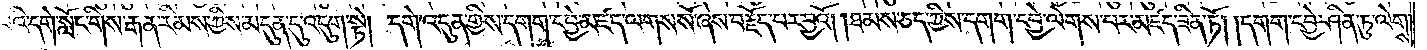པའི་དགེ་སློང་གིས་རྒན་རིམས་ཀྱིས་མདུན་དུ་འདུག་སྟེ། དགེ་འདུན་གྱིས་དགག་དབྱེ་མཛད་ལགས་སོ་ཞེས་བརྗོད་པར་བྱའོ། །ཐམས་ཅད་ཀྱིས་དགག་དབྱེ་ལེགས་པར་མཛད་ཟིན་ཏོ། །དགག་དབྱེ་ཤིན་ཏུ་ལེགས་
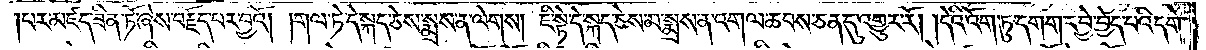།པར་མཛད་ཟིན་ཏོ་ཞེས་བརྗོད་པར་བྱའོ། །གལ་ཏེ་དེ་སྐད་ཅེས་སྨྲས་ན་ལེགས། ཇི་སྟེ་དེ་སྐད་ཅེས་མ་སྨྲས་ན་འགལ་ཆབས་ཅན་དུ་འགྱུར་རོ། །དེའི་འོག་ཏུ་དགག་དབྱེ་བྱེད་པའི་དགེ་
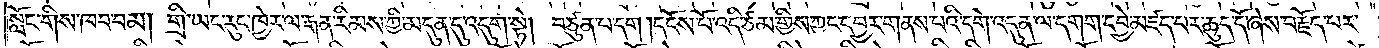སློང་གིས་ཁབ་བམ། གྲི་ཡང་རུང་ཁྱེར་ལ་རྒན་རིམས་ཀྱི་མདུན་དུ་འདུག་སྟེ། བཙུན་པ་དག །དངོས་པོ་འདི་ཙམ་གྱིས་ཀྱང་དབྱར་གནས་པའི་དགེ་འདུན་ལ་དགག་དབྱེ་མཛད་པར་ཆུད་དོ་ཞེས་བརྗོད་པར་
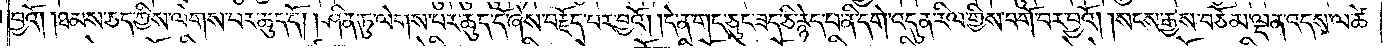བྱའོ། །ཐམས་ཅད་ཀྱིས་ལེགས་པར་ཆུད་དོ། །ཤིན་ཏུ་ལེགས་པར་ཆུད་དོ་ཞེས་བརྗོད་པར་བྱའོ། །དེ་ན་གང་ཅུང་ཟད་ཅི་རྙེད་པ་ནི་དགེ་འདུན་རིལ་གྱིས་བགོ་བར་བྱའོ། །སངས་རྒྱས་བཅོམ་ལྡན་འདས་ལ་ཚེ་
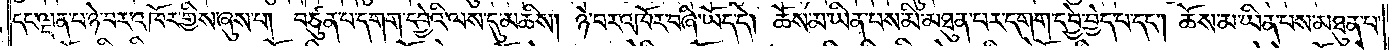དང་ལྡན་པ་ཉེ་བར་འཁོར་གྱིས་ཞུས་པ། བཙུན་པ་དགག་དབྱེའི་ལས་དུ་མཆིས། ཉེ་བར་འཁོར་བཞི་ཡོད་དེ། ཆོས་མ་ཡིན་པས་མི་མཐུན་པར་དགག་དབྱེ་བྱེད་པ་དང༌། ཆོས་མ་ཡིན་པས་མཐུན་པ་
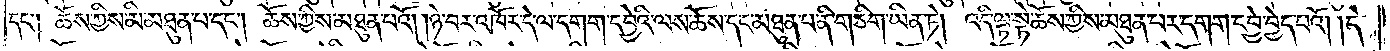དང༌། ཆོས་ཀྱིས་མི་མཐུན་པ་དང༌། ཆོས་ཀྱིས་མཐུན་པའོ། །ཉེ་བར་འཁོར་དེ་ལ་དགག་དབྱེའི་ལས་ཆོས་དང་མཐུན་པ་ནི་གཅིག་ཡིན་ཏེ། འདི་ལྟ་སྟེ་ཆོས་ཀྱིས་མཐུན་པར་དགག་དབྱེ་བྱེད་པའོ། །དེ་
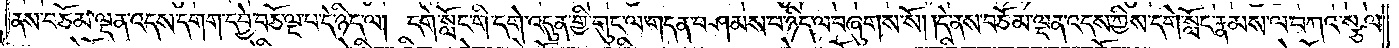ནས་བཅོམ་ལྡན་འདས་དགག་དབྱེ་བཅོ་ལྔ་པ་དེ་ཉིད་ལ། དགེ་སློང་གི་དགེ་འདུན་གྱི་གུང་ལ་གདན་བཤམས་པ་ཉིད་ལ་བཞུགས་སོ། །དེ་ནས་བཅོམ་ལྡན་འདས་ཀྱིས་དགེ་སློང་རྣམས་ལ་བཀའ་སྩལ་
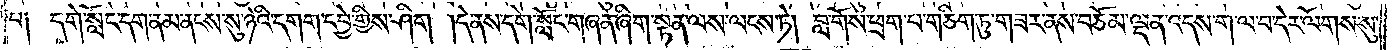པ༑ དགེ་སློང་དག་ནམ་ནངས་སུ་ཉེའི་དགག་དབྱེ་གྱིས་ཤིག །དེ་ནས་དགེ་སློང་གཞན་ཞིག་སྟན་ལས་ལངས་ཏེ། བླ་གོས་ཕྲག་པ་གཅིག་ཏུ་གཟར་ནས་བཅོམ་ལྡན་འདས་ག་ལ་བ་དེར་ལོགས་སུ་
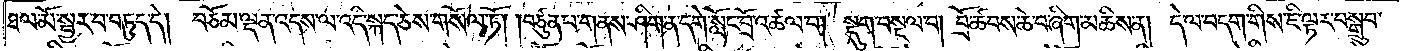ཐལ་མོ་སྦྱར་བ་བཏུད་དེ། བཅོམ་ལྡན་འདས་ལ་འདི་སྐད་ཅེས་གསོལ་ཏོ། །བཙུན་པ་གནས་ཤིག་ན་དགེ་སློང་བྲོ་འཚལ་བ། སྡུག་བསྔལ་བ། བྲོ་ཚབས་ཆེ་བ་ཞིག་མཆིས་ན། དེ་ལ་བདག་གིས་ཇི་ལྟར་བསྒྲུབ་
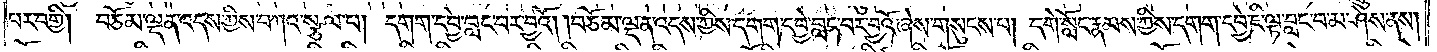པར་བགྱི། བཅོམ་ལྡན་འདས་ཀྱིས་བཀའ་སྩལ་བ། དགག་དབྱེ་བླང་བར་བྱའོ། །བཅོམ་ལྡན་འདས་ཀྱིས་དགག་དབྱེ་བླང་བར་བྱའོ་ཞེས་གསུངས་པ། དགེ་སློང་རྣམས་ཀྱིས་དགག་དབྱེ་ཇི་ལྟ་བླང་བ་མ་ཤེས་ནས།
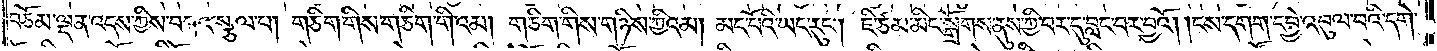བཅོམ་ལྡན་འདས་ཀྱིས་བཀའ་སྩལ་པ། གཅིག་གིས་གཅིག་གིའམ། གཅིག་གིས་གཉིས་ཀྱིའམ། མང་པོའི་ཡང་རུང༌། ཇི་ཙམ་མིང་སྒྲོགས་ནུས་ཀྱི་བར་དུ་བླང་བར་བྱའོ། །ངས་དགག་དབྱེ་འབུལ་བའི་དགེ་
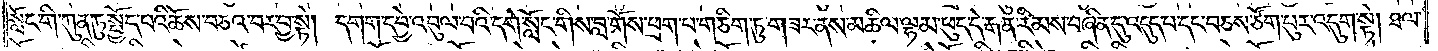སློང་གི་ཀུན་ཏུ་སྤྱོད་པའི་ཆོས་བཅའ་བར་བྱ་སྟེ། དགག་དབྱེ་འབུལ་བའི་དགེ་སློང་གིས་བླ་གོས་ཕྲག་པ་གཅིག་ཏུ་གཟར་ནས་མཆིལ་ལྷམ་ཕུད་དེ་རྒན་རིམས་བཞིན་དུ་འདུད་པ་དང་བཅས་ཙོག་པུར་འདུག་སྟེ། ཐལ་
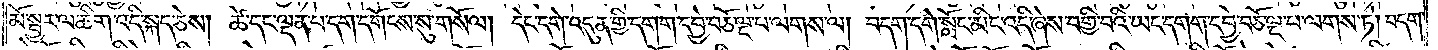མོ་སྦྱར་ལ་ཚིག་འདི་སྐད་ཅེས། ཚེ་དང་ལྡན་པ་དག་དགོངས་སུ་གསོལ། དེང་དགེ་འདུན་གྱི་དགག་དབྱེ་བཅོ་ལྔ་པ་ལགས་ལ། བདག་དགེ་སློང་མིང་འདི་ཞེས་བགྱི་བའི་ཡང་དགག་དབྱེ་བཅོ་ལྔ་པ་ལགས་ཏེ། བདག་
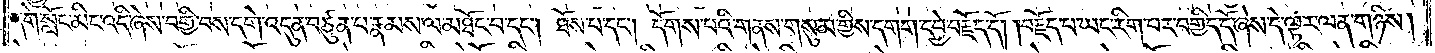དགེ་སློང་མིང་འདི་ཞེས་བགྱི་བས་དགེ་འདུན་བཙུན་པ་རྣམས་ལ་མཐོང་བ་དང༌། ཐོས་པ་དང༌། དོགས་པའི་གནས་གསུམ་གྱིས་དགག་དབྱེ་བརྗོད་དོ། །བརྗོད་པ་ཡང་རིག་པར་བགྱིད་དོ་ཞེས་དེ་ལྟར་ལན་གཉིས།
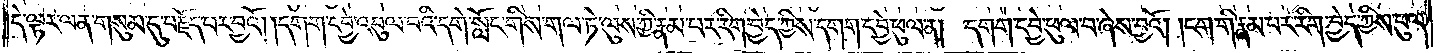དེ་ལྟར་ལན་གསུམ་དུ་བརྗོད་པར་བྱའོ། །དགག་དབྱེ་འབུལ་བའི་དགེ་སློང་གིས་གལ་ཏེ་ལུས་ཀྱི་རྣམ་པར་རིག་བྱེད་ཀྱིས་དགག་དབྱེ་ཕུལ་ན། དགག་དབྱེ་ཕུལ་བ་ཞེས་བྱའོ། །ངག་གི་རྣམ་པར་རིག་བྱེད་ཀྱིས་ཕུལ་
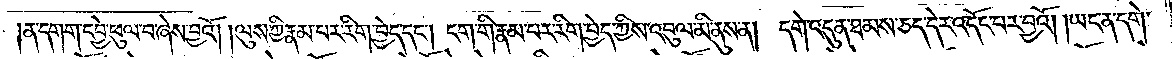ན་དགག་དབྱེ་ཕུལ་བ་ཞེས་བྱའོ། །ལུས་ཀྱི་རྣམ་པར་རིག་བྱེད་དང༌། ངག་གི་རྣམ་པར་རིག་བྱེད་ཀྱིས་འབུལ་མི་ནུས་ན། དགེ་འདུན་ཐམས་ཅད་དེར་འདོང་པར་བྱའོ། །ཡང་ན་དགེ་
